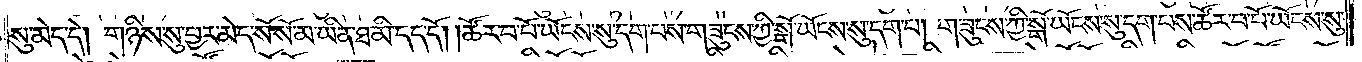སུ་མེད་དེ། གཉིས་སུ་བྱར་མེད་སོ་སོ་མ་ཡིན་ཐ་མི་དད་དོ། །ཚོར་བ་པོ་ཡོངས་སུ་དག་པས་གཟུངས་ཀྱི་སྒོ་ཡོངས་སུ་དག་པ། གཟུངས་ཀྱི་སྒོ་ཡོངས་སུ་དག་པས་ཚོར་བ་པོ་ཡོངས་སུ་
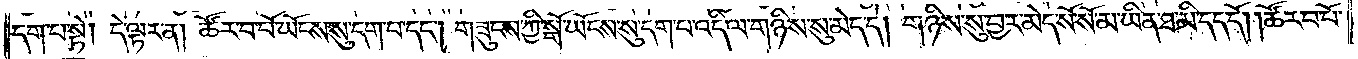དག་པ་སྟེ། དེ་ལྟར་ན། ཚོར་བ་པོ་ཡོངས་སུ་དག་པ་དང༌། གཟུངས་ཀྱི་སྒོ་ཡོངས་སུ་དག་པ་འདི་ལ་གཉིས་སུ་མེད་དེ། གཉིས་སུ་བྱར་མེད་སོ་སོ་མ་ཡིན་ཐ་མི་དད་དོ། །ཚོར་བ་པོ་
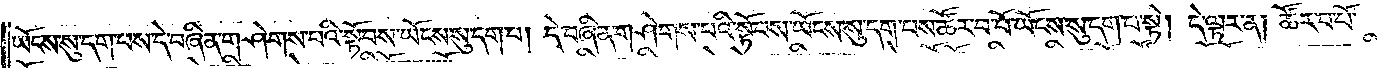ཡོངས་སུ་དག་པས་དེ་བཞིན་གཤེགས་པའི་སྟོབས་ཡོངས་སུ་དག་པ། དེ་བཞིན་གཤེགས་པའི་སྟོབས་ཡོངས་སུ་དག་པས་ཚོར་བ་པོ་ཡོངས་སུ་དག་པ་སྟེ། དེ་ལྟར་ན། ཚོར་བ་པོ་
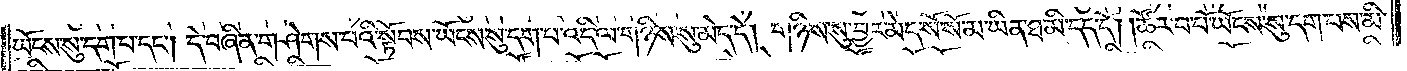ཡོངས་སུ་དག་པ་དང༌། དེ་བཞིན་གཤེགས་པའི་སྟོབས་ཡོངས་སུ་དག་པ་འདི་ལ་གཉིས་སུ་མེད་དེ། གཉིས་སུ་བྱར་མེད་སོ་སོ་མ་ཡིན་ཐ་མི་དད་དོ། །ཚོར་བ་པོ་ཡོངས་སུ་དག་པས་མི་
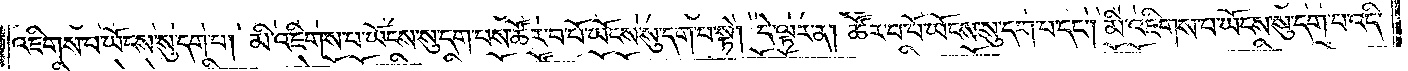འཇིགས་པ་ཡོངས་སུ་དག་པ། མི་འཇིགས་པ་ཡོངས་སུ་དག་པས་ཚོར་བ་པོ་ཡོངས་སུ་དག་པ་སྟེ། དེ་ལྟར་ན། ཚོར་བ་པོ་ཡོངས་སུ་དག་པ་དང༌། མི་འཇིགས་པ་ཡོངས་སུ་དག་པ་འདི་
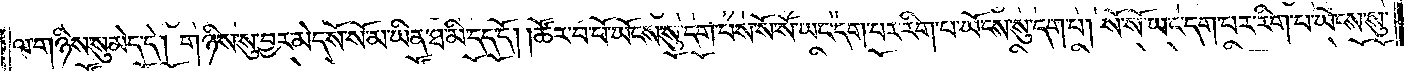ལ་གཉིས་སུ་མེད་དེ། གཉིས་སུ་བྱར་མེད་སོ་སོ་མ་ཡིན་ཐ་མི་དད་དོ། །ཚོར་བ་པོ་ཡོངས་སུ་དག་པས་སོ་སོ་ཡང་དག་པར་རིག་པ་ཡོངས་སུ་དག་པ། སོ་སོ་ཡང་དག་པར་རིག་པ་ཡོངས་སུ་
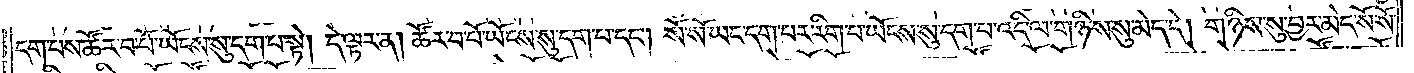དག་པས་ཚོར་བ་པོ་ཡོངས་སུ་དག་པ་སྟེ། དེ་ལྟར་ན། ཚོར་བ་པོ་ཡོངས་སུ་དག་པ་དང༌། སོ་སོ་ཡང་དག་པར་རིག་པ་ཡོངས་སུ་དག་པ་འདི་ལ་གཉིས་སུ་མེད་དེ། གཉིས་སུ་བྱར་མེད་སོ་སོ་
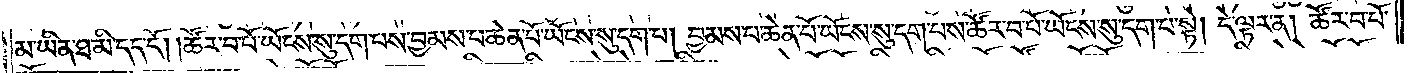མ་ཡིན་ཐ་མི་དད་དོ། །ཚོར་བ་པོ་ཡོངས་སུ་དག་པས་བྱམས་པ་ཆེན་པོ་ཡོངས་སུ་དག་པ། བྱམས་པ་ཆེན་པོ་ཡོངས་སུ་དག་པས་ཚོར་བ་པོ་ཡོངས་སུ་དག་པ་སྟེ། དེ་ལྟར་ན། ཚོར་བ་པོ་
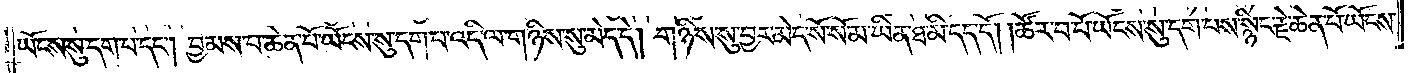ཡོངས་སུ་དག་པ་དང༌། བྱམས་པ་ཆེན་པོ་ཡོངས་སུ་དག་པ་འདི་ལ་གཉིས་སུ་མེད་དེ། གཉིས་སུ་བྱར་མེད་སོ་སོ་མ་ཡིན་ཐ་མི་དད་དོ། །ཚོར་བ་པོ་ཡོངས་སུ་དག་པས་སྙིང་རྗེ་ཆེན་པོ་ཡོངས་
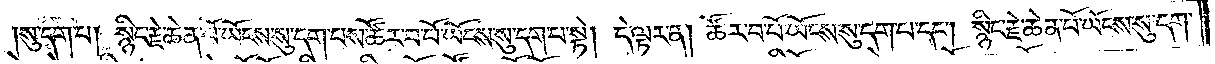སུ་དག་པ། སྙིང་རྗེ་ཆེན་པོ་ཡོངས་སུ་དག་པས་ཚོར་བ་པོ་ཡོངས་སུ་དག་པ་སྟེ། དེ་ལྟར་ན། ཚོར་བ་པོ་ཡོངས་སུ་དག་པ་དང༌། སྙིང་རྗེ་ཆེན་པོ་ཡོངས་སུ་དག་
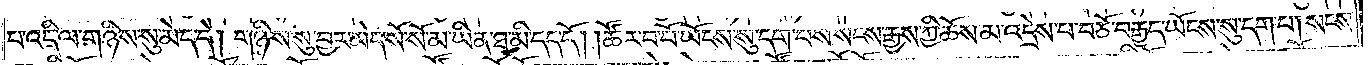པ་འདི་ལ་གཉིས་སུ་མེད་དེ། གཉིས་སུ་བྱར་མེད་སོ་སོ་མ་ཡིན་ཐ་མི་དད་དོ། །ཚོར་བ་པོ་ཡོངས་སུ་དག་པས་སངས་རྒྱས་ཀྱི་ཆོས་མ་འདྲེས་པ་བཅོ་བརྒྱད་ཡོངས་སུ་དག་པ། སངས་
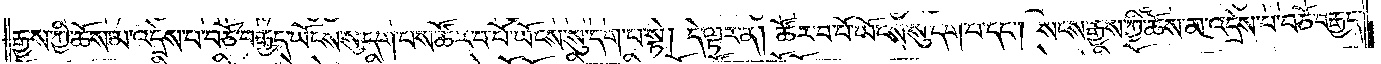རྒྱས་ཀྱི་ཆོས་མ་འདྲེས་པ་བཅོ་བརྒྱད་ཡོངས་སུ་དག་པས་ཚོར་བ་པོ་ཡོངས་སུ་དག་པ་སྟེ། དེ་ལྟར་ན། ཚོར་བ་པོ་ཡོངས་སུ་དག་པ་དང༌། སངས་རྒྱས་ཀྱི་ཆོས་མ་འདྲེས་པ་བཅོ་བརྒྱད་
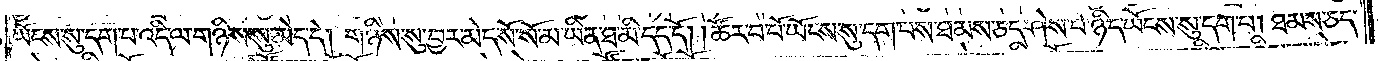ཡོངས་སུ་དག་པ་འདི་ལ་གཉིས་སུ་མེད་དེ། གཉིས་སུ་བྱར་མེད་སོ་སོ་མ་ཡིན་ཐ་མི་དད་དོ། །ཚོར་བ་པོ་ཡོངས་སུ་དག་པས་ཐམས་ཅད་ཤེས་པ་ཉིད་ཡོངས་སུ་དག་པ། ཐམས་ཅད་
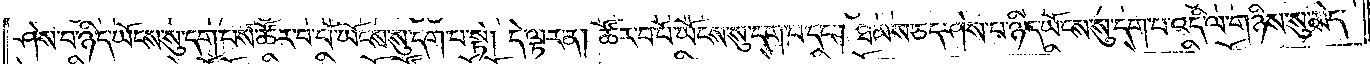ཤེས་པ་ཉིད་ཡོངས་སུ་དག་པས་ཚོར་བ་པོ་ཡོངས་སུ་དག་པ་སྟེ། དེ་ལྟར་ན། ཚོར་བ་པོ་ཡོངས་སུ་དག་པ་དང༌། ཐམས་ཅད་ཤེས་པ་ཉིད་ཡོངས་སུ་དག་པ་འདི་ལ་གཉིས་སུ་མེད་
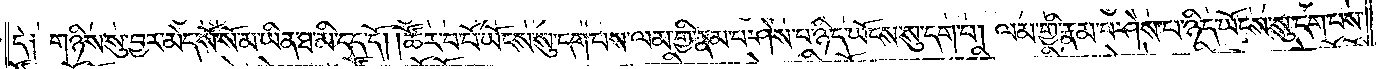དེ༑ གཉིས་སུ་བྱར་མེད་སོ་སོ་མ་ཡིན་ཐ་མི་དད་དོ། །ཚོར་བ་པོ་ཡོངས་སུ་དག་པས་ལམ་གྱི་རྣམ་པར་ཤེས་པ་ཉིད་ཡོངས་སུ་དག་པ། ལམ་གྱི་རྣམ་པ་ཤེས་པ་ཉིད་ཡོངས་སུ་དག་པས་
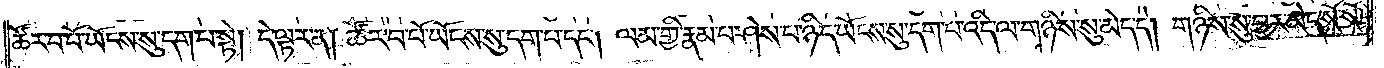ཚོར་བ་པོ་ཡོངས་སུ་དག་པ་སྟེ། དེ་ལྟར་ན། ཚོར་བ་པོ་ཡོངས་སུ་དག་པ་དང༌། ལམ་གྱི་རྣམ་པ་ཤེས་པ་ཉིད་ཡོངས་སུ་དག་པ་འདི་ལ་གཉིས་སུ་མེད་དེ། གཉིས་སུ་བྱར་མེད་སོ་སོ་
